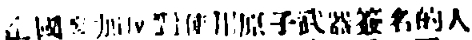全國參加反對使用原子武器簽名的人
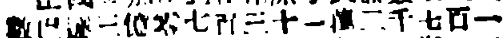數已達三億零七百三十一萬二千七百一
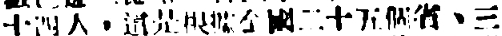十四人，這是根據全國二十五個省、三
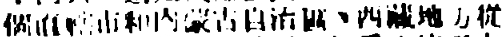個直轄市和內蒙古自治區、西藏地方從
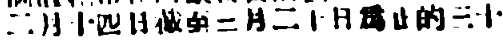二月十四日截至三月二十日爲止的三十
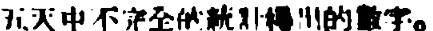五天中不完全的統計得出的數字。
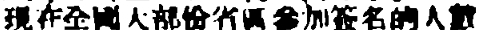現在全國大部分省區參加簽名的人數
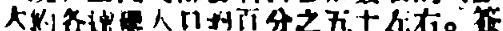大約各達總人口的百分之五十左右。簽
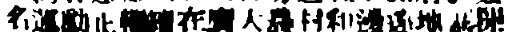名運動正繼續在廣大農村和邊遠地區開
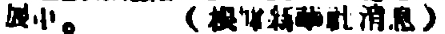展中。 （根據新華社消息）
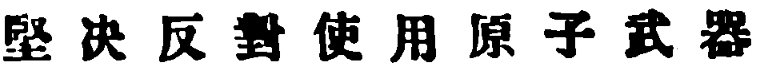堅決反對使用原子武器
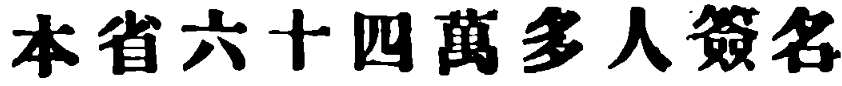本省六十萬多人簽名
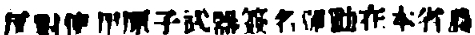反對使用原子武器簽名運動在本省農
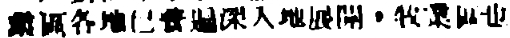業區各地已普遍深入地展開，牧業區也
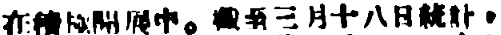在積極開展中。截至三月十八日統計，
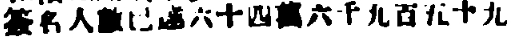簽名人數已達六十四萬六千九百五十九
